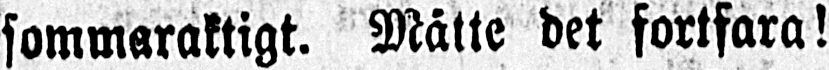sommaraktigt. Måtte det fortfara!
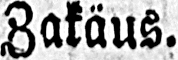Zakäus.
